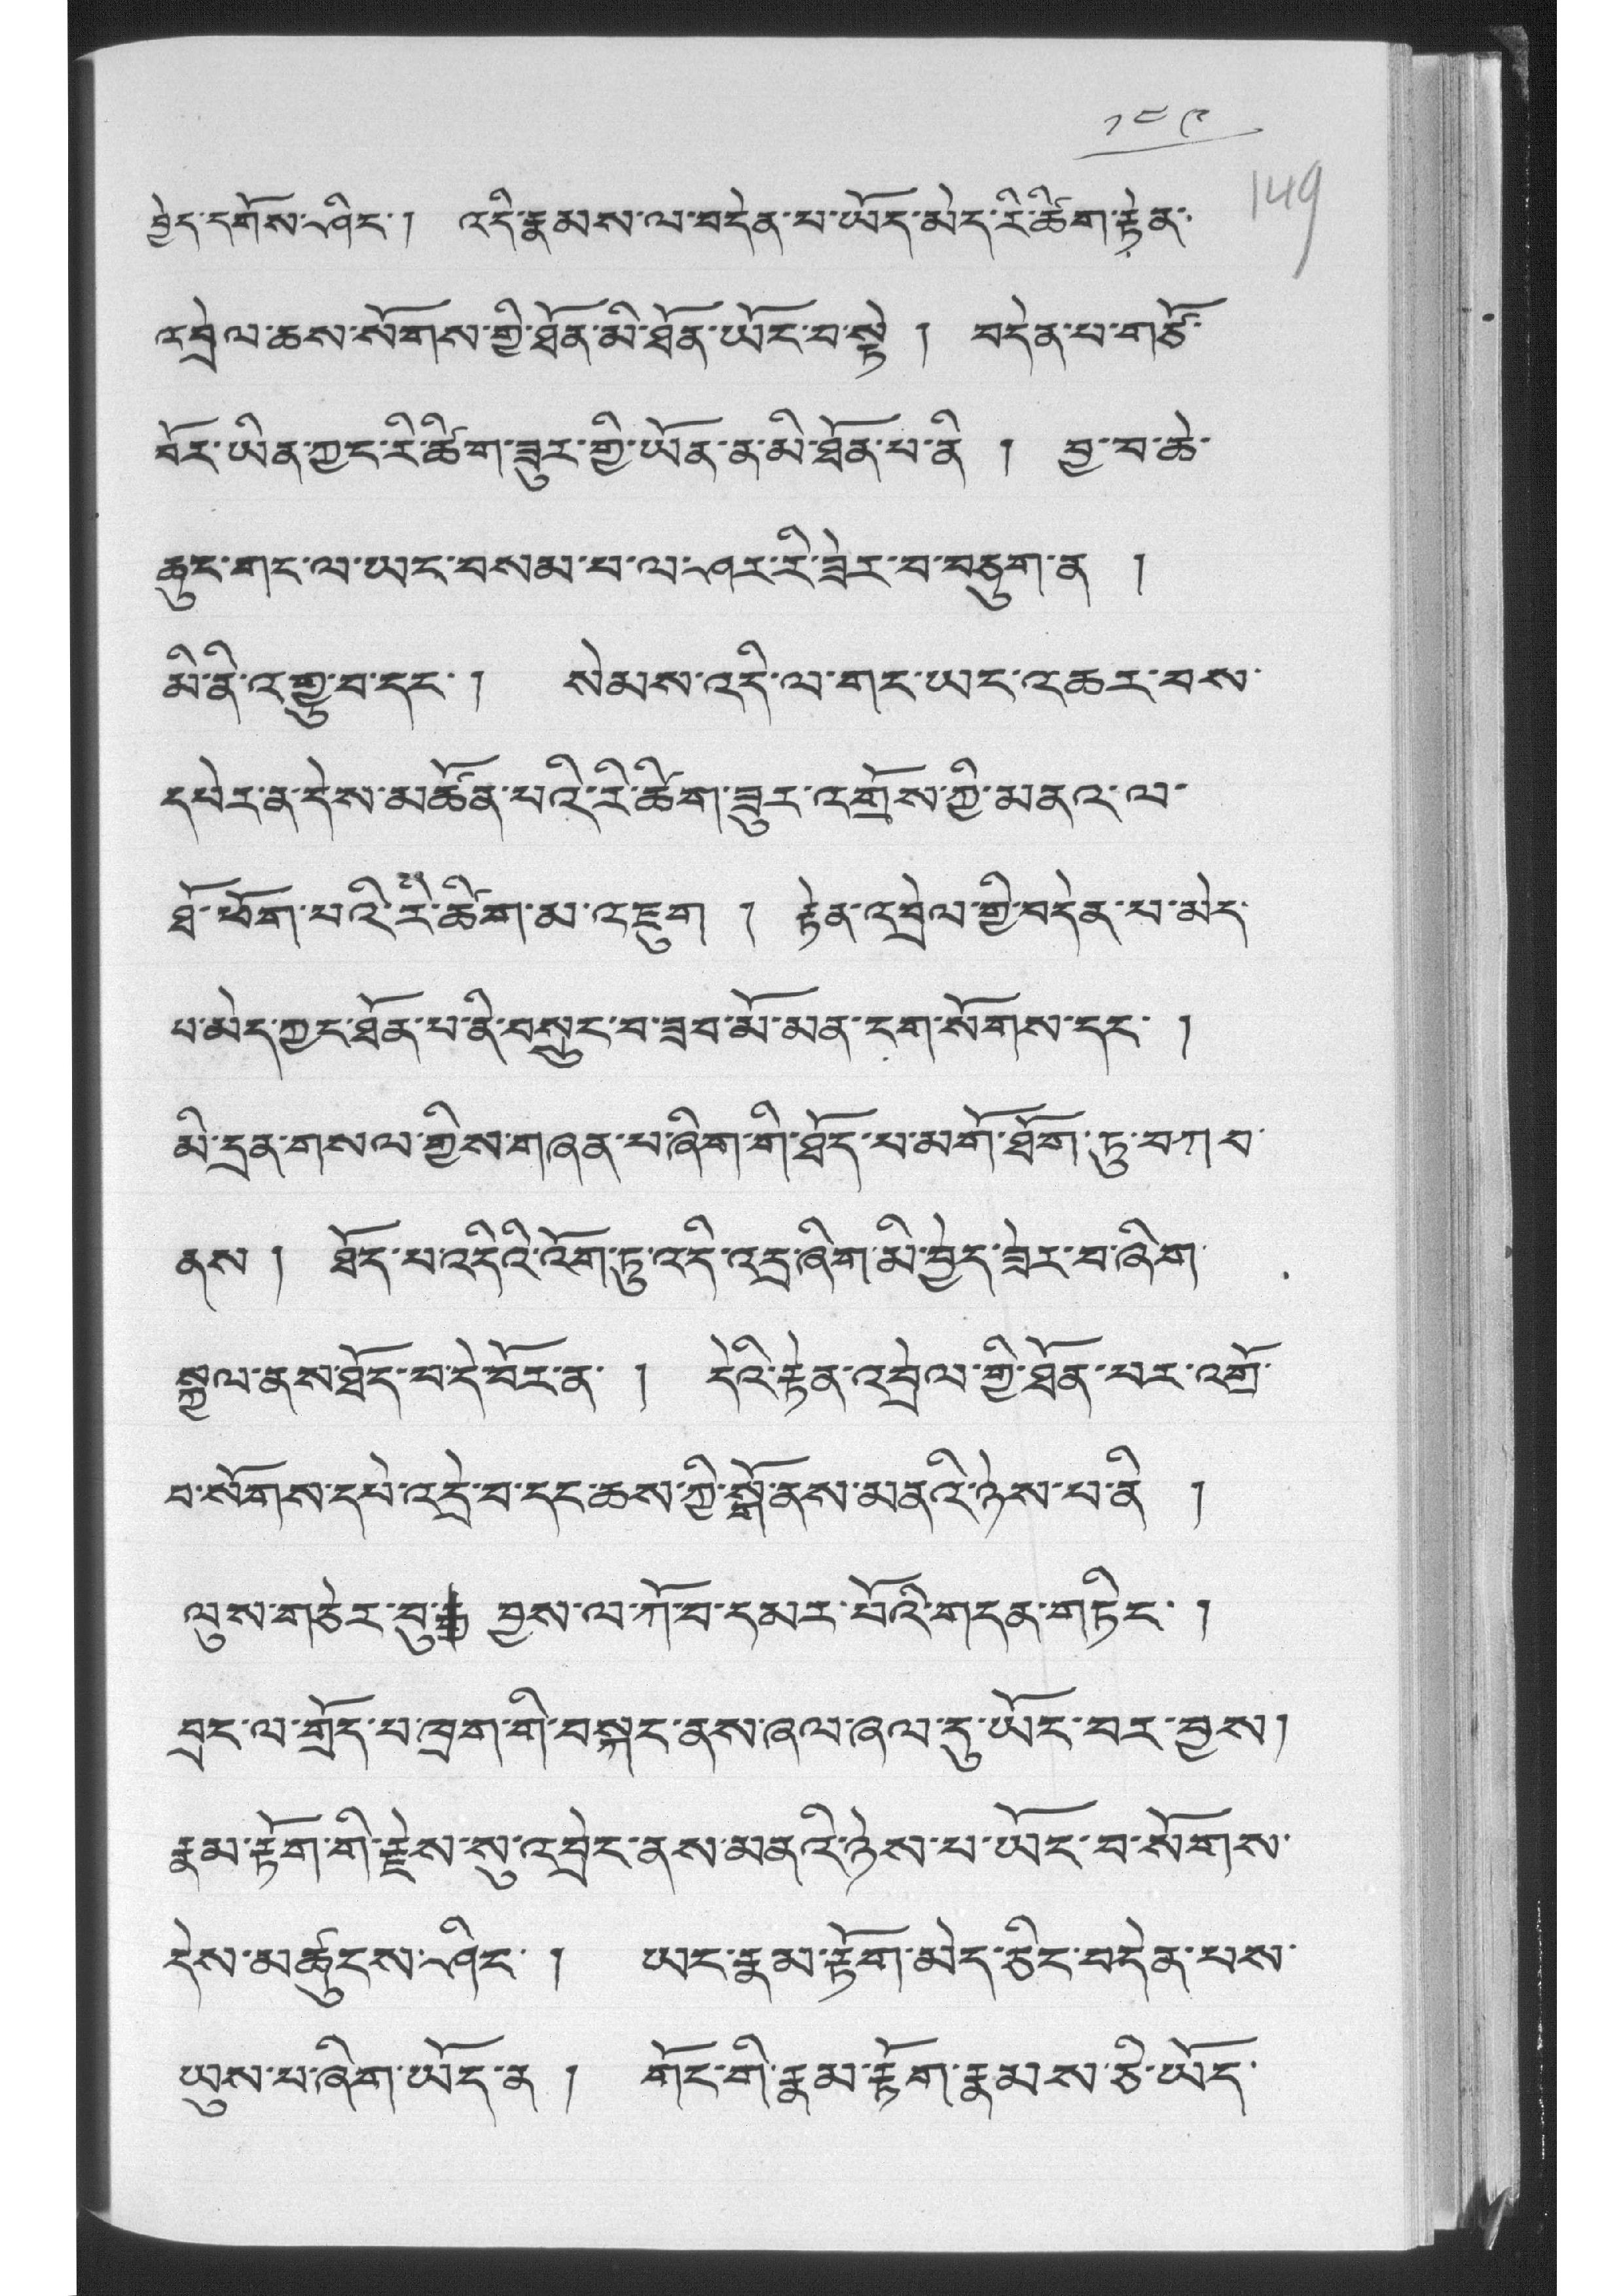༡༤༩
བྱེད་དགོས་ཤིང་། འདི་རྣམས་ལ་བདེན་པ་ཡོད་མེད་རི་ཚིག་རྟེན་
འབྲེལ་ཆས་སོགས་གྱི་ཐོན་མི་ཐོན་ཡོང་བ་སྟེ ། བདེན་པ་གཙོ་
བོར་ཡིན་ཀྱང་རི་ཚིག་ཟུར་གྱི་ཡོན་ན་མི་ཐོན་པ་ནི ། བྱ་བ་ཆེ་
ཆུང་གང་ལ་ཡང་བསམ་པ་ལ་ཤར་རི་ཟེར་བ་བཅུག་ན །
མི་ནི་འགྱུ་བ་དང་། སེམས་འདི་ལ་གང་ཡང་འཆར་བས་
དཔེར་ན་དེས་མཚོན་པའི་རི་ཚིག་ཟུར་འགྲོས་ཀྱི་མནའ་ལ་
ཐོ་ཕོག་པའི་རི་ཚིག་མ་འཇུག ། རྟེན་འབྲེལ་གྱི་བདེན་པ་མེད་
པ་མེད་ཀྱང་ཐོན་པ་ནི་བསྲུང་བ་ཟབ་མོ་མན་ངག་སོགས་དང་ །
མི་དྲན་གསལ་གྱིས་གཞན་པ་ཞིག་གི་ཐོད་པ་མགོ་ཐོག་ཏུ་བཀབ་
ནས ། ཐོད་པ་འདིའི་འོག་ཏུ་འདི་འདྲ་ཞིག་མི་བྱེད་ཟེར་བ་ཞིག་
སྐྱལ་ནས་ཐོད་པ་དེ་བོར་ན་ ། དེའི་རྟེན་འབྲེལ་གྱི་ཐོན་པར་འགྲོ་
པ་སོགས་དཔེ་འདྲེ་བ་དང་ཆས་ཀྱི་སྒོ་ནས་མནའི་ཉེས་པ་ནི །
ལུས་གཅེར་བུ་རྒྱ བྱས་ལ་ཀོ་བ་དམར་པོའི་གདན་གཏིང་ །
བྲང་ལ་གྲོད་པ་ཁྲག་གི་བསྐང་ནས་ཞལ་ཞལ་དུ་ཡོང་བར་བྱས།
རྣམ་རྟོག་གི་རྗེས་ས་འབྲེང་ནས་མནའི་ཉེས་པ་ཡོང་བ་སོགས་
དེས་མཚུངས་ཤིང་ ། ཡང་རྣམ་རྟོག་མེད་ཅིང་བདེན་པས་
ཡུས་པ་ཞིག་ཡོད་ན ། གོང་གི་རྣམ་རྟོག་རྣམས་ཅི་ཡོད་
